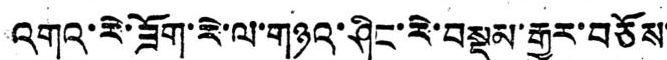འགའ་རེ་ཟོག་རེ་ལ་གཉའ་ཤིང་རེ་བསྡམ་རྒྱུར་བཅོས་
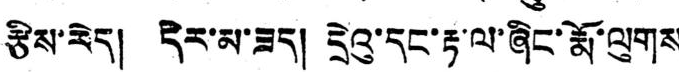རྩིས་རེད། དེར་མ་ཟད། དྲེའུ་དང་རྟ་ལ་ཞིང་རྨོ་ལུགས
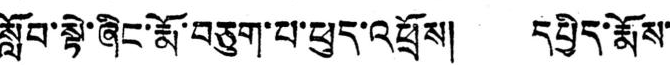སློབ་སྟེ་ཞིང་རྨོ་བཅུག་པ་ཕུད་འཕྲོས། དཔྱིད་རྨོས་
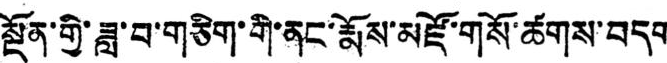སྔོན་གྱི་ཟླ་བ་གཅིག་གི་ནང་རྨོས་མཛོ་གསོ་ཚགས་བདག
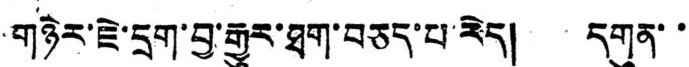གཉེར་ཇེ་དྲག་བྱ་རྒྱུར་ཐག་བཅད་པ་རེད། དགུན་་
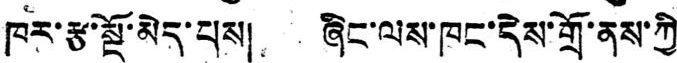ཁར་རྩ་སྔོ་མེད་པས། ཞིང་ལས་ཁང་དེས་གྲོ་ནས་ཀྱི
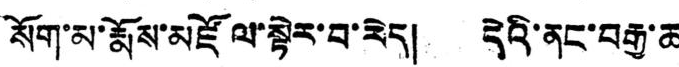སོག་མ་རྨོས་མཛོ ལ་སྟེར་བ་རེད། དེའི་ནང་བརྒྱ་ཆ
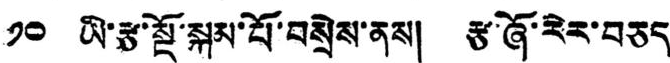༡༠ ཡི་རྩ་སྔོ་སྐམ་པོ་བསྲེས་ནས། རྩ་ཞོ་རེར་བཅད་
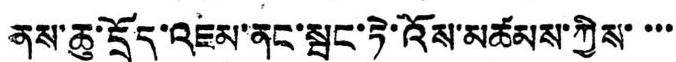ནས་ཆུ་དྲོད་འཇམ་ནང་སྦང་ཏེ་འོས་མཚམས་ཀྱིས་་་་་
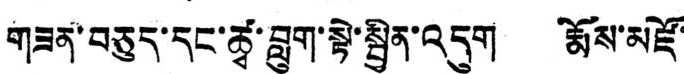གཟན་བཅུད་དང་ཚྭ་བླུག་སྟེ་སྦྱིན་འདུག རྨོས་མཛོ་
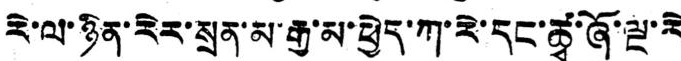རེ་ལ་ཉིན་རེར་སྲན་མ་རྒྱ་མ་ཕྱེད་ཀ་རེ་དང་ཚྭ་ཞོ་ལྔ་རེ
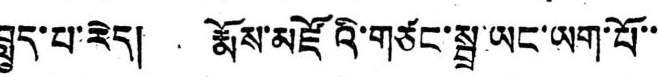བླུད་པ་རེད། རྨོས་མཛོའི་གཙང་སྦྲ་ཡང་ཡག་པོ་་་
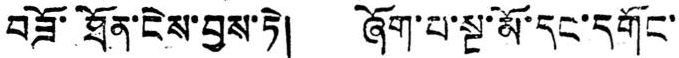བཟོ་ཐོན་ངེས་བྱས་ཏེ། ཞོག་པ་སྔ་མོ་དང་དགོང་་
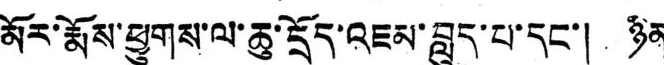མོར་རྨོས་ཕྱུགས་ལ་ཆུ་དྲོད་འཇམ་བླུད་པ་དང་། ཉིན་
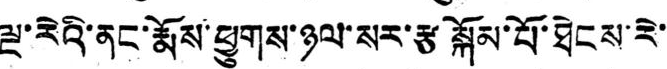ལྔ་རེའི་ནང་རྨོས་ཕྱུགས་ཉལ་སར་རྩ སྐོམ་པོ་ཐེངས་རེ་་
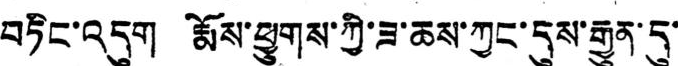བཏིང་འདུག རྨོས་ཕྱུགས་ཀྱི་ཟ་ཆས་ཀྱང་དུས་རྒྱུན་དུ་
